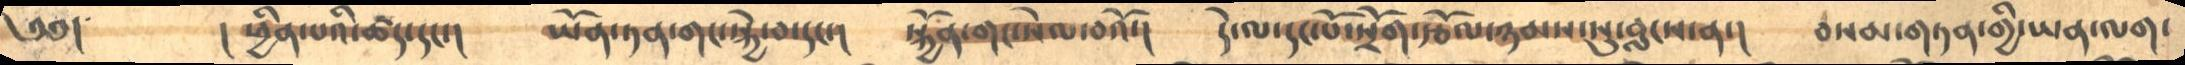༄༅།       ། ཕྱིན་པའི་ཚད་དང་།      ཡོན་ཏན་གང་སྐྱེ་བ་དང་།    སྐྱོན་གང་སེལ་བའོ་།   དེ་ལ་དང་པོ་སྲོག་རྩོལ་ཉམས་སུ་བླངས་ན་།    བསམ་གཏན་གྱི་ཡན་ལག་
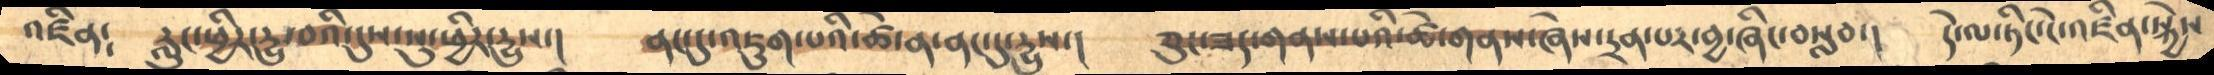འཛིན༴   རླུང་ཕྱིར་དྱུ་བའི་དུས་སུ་ཕྱིར་དྱུས་།      ནང་དུ་འཇུག་པའི་ཚེ་ན་ནང་དུ་དྱུས་།    ཅུང་ཟད་གནས་པའི་ཚེ་གནས་ཞེས་དྲན་པར་བྱ་ཞིང་བསླབ་།   དེ་ལ་ཏིང་ངེ་འཛིན་སྐྱེས
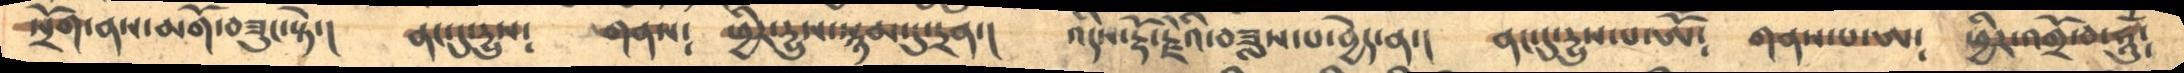སྲོག་ནས་མགོ་བཟུང་སྟེ་།     ནང་དུ་དྱུས༴     གནས༴    ཕྱིར་དྱུས་སྙམ་དུ་དྲན་།      འདིས་རྡོ་རྗེའི་བཟླས་པ་བྱེད་ན་།   ནང་དུ་དྱུས་པ་ཨོ༴     གནས་པ་ཨ༴    ཕྱིར་འགྲོ་བ་ཧཱུྃ༴
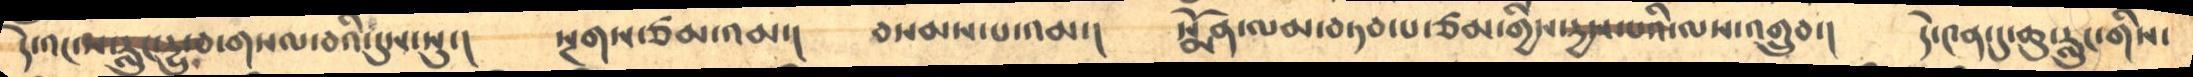དེ་འང་ས་རླུང་དྱུ་བ་གསལ་བའི་དུས་སུ་།    སྔགས་ཙམ་འམ་།     བསམས་པ་འམ་།    སྨོན་ལམ་བཏབ་པ་ཙམ་གྱིས་སདྱས་པའི་ལས་འགྲུབ་།    དེ་༤ན་དུ་ཆུ་རླུང་གིས་
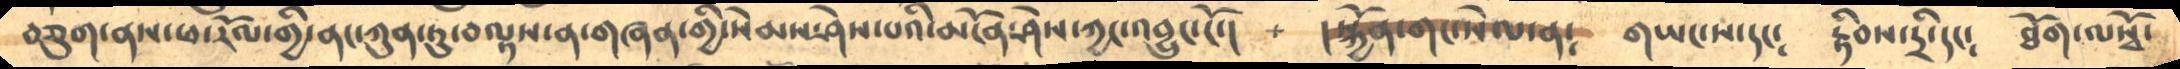བཅུག་ནས་ཕ་རོལ་གྱི་ནང་ཀུན་ཏུ་བལྟས་ན་གཞན་གྱི་སེམས་ཤེས་པའི་མངོན་ཤེས་ཀྱང་འབྱུང་ངོ་།   །སྐྱོན་གང་སེལ་ན༴  གཡང་ས་དང༴  རྟིབས་དྲི་དང༴  ཐོག་ལསྭོ་
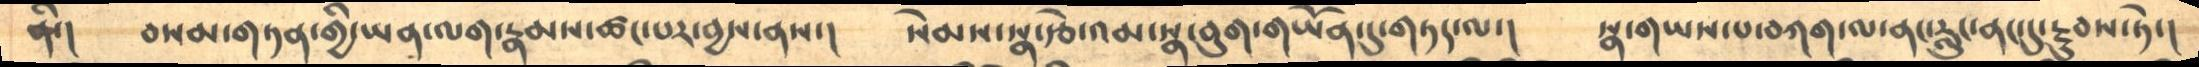ནི་།    བསམ་གཏན་གྱི་ཡན་ལག་རྣམས་ཚང་པར་བྱས་ནས་།      སེམས་སྣ་རྩེ་འམ་སྣ་བུག་གཡོན་དུ་གཏད་ལ་།    སྣ་གཡས་པ་བཀག་ལ་རླུང་ནང་དུ་རྔུབས་ཏེ་།
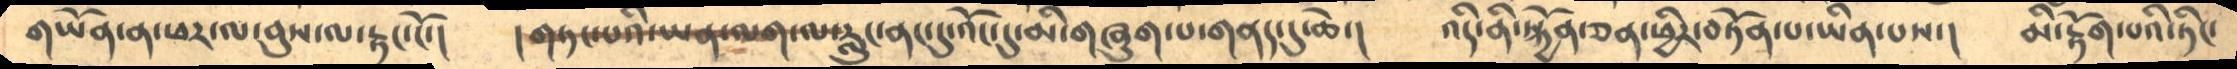གཡོན་ན་ཕར་ལ་བུས་མ་རྟང་ངོ་།   །གཏང་པའི་ཡན་ལག་ལ་རླུང་ནང་དུ་འོང་དུ་མི་གཞུག་པ་གནད་དུ་ཆེ་།    འདི་ནི་སྐྱོན་ཅན་ཕྱིར་བཏོན་པ་ཡིན་པས་།    མི་རྟོག་པའི་ཏིང་
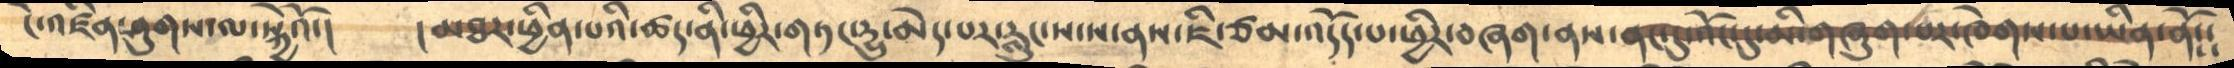ངེ་འཛིན་ཤུགས་ལ་སྐྱེའོ་།    །མཐར་ཕྱིན་པའི་ཚད་ནི་ཕྱིར་གཏང་དྱུ་མེད་པར་རླུང་ས་ས་ནས་ཇི་ཙམ་འདོད་པ་ཕྱིར་བཞག་ནས་ནང་དུ་འོང་དུ་མི་གཞུག་པར་ཁེགས་པ་ཡིན་ནོ༴༴
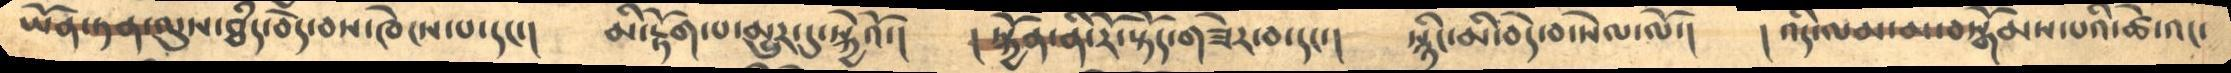ཡོན་ཏན་ལུས་ཐཾད་བདེ་བས་ཁེངས་པ་དང་།     མི་རྟོག་པ་མྱུར་དུ་སྐྱེའོ་།     །སྐྱོན་ནི་རོ་སྟོད་གཟེར་བ་དང་།    སྙིང་མི་བེད་བ་སེལ་ལོ་།   །འདི་ལམ་མ་བསྒོམ་པའི་ཚེ་འང་
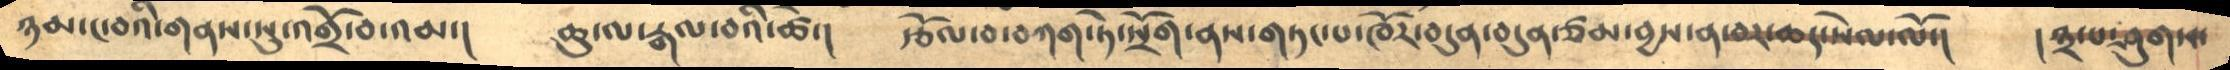ཉམ་ང་བའི་གནས་སུ་འགྲོ་བ་འམ་།    ཆུ་ལ་རྒལ་བའི་ཚེ་།    རྩོལ་བ་བཀག་ཏེ་སྲོག་ནས་གཏང་པ་ཁོར་བདུན་བདུན་ཙམ་བྱས་ན་བར་ཆད་སེལ་ལོ་།    །༣་པ་ཤུགས་
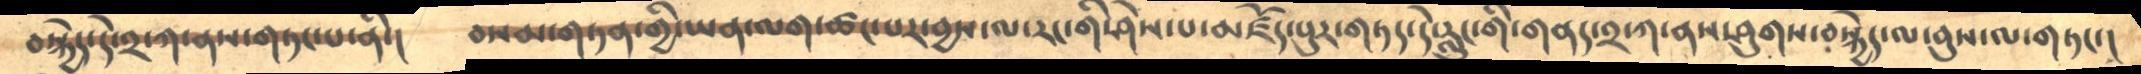བསྐྱེད་དེ་༢་ཀ་ནས་གཏང་པ་ནི་།    བསམ་གཏན་གྱི་ཡན་ལག་ཚང་པར་བྱས་ལ་རང་གི་ཤེས་པ་མཛོད་པུར་གཏད་དེ་རླུང་གི་གནད་༢་ཀ་ནས་ཤུགས་བསྐྱེད་ལ་བུས་ལ་གཏང་།
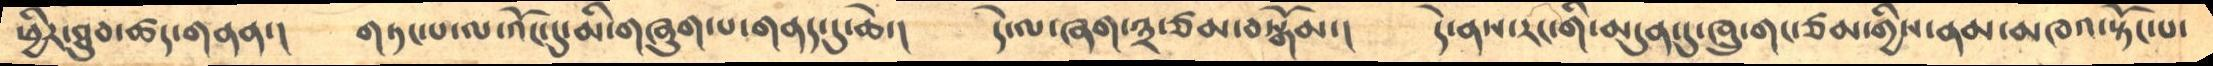ཕྱིར་ཐུབ་ཚད་གནན་།     གཏང་པ་ལ་འོང་དུ་མི་གཞུགས་པ་གནད་དུ་ཆེ་།    དེ་ལ་ཞག་༣་ཙམ་བསྒོམ་།     དེ་ནས་རང་གི་མདུན་དུ་ཁྲུ་གང་ཙམ་གྱིས་ནམ་མཁའ་སྟོང་པ་
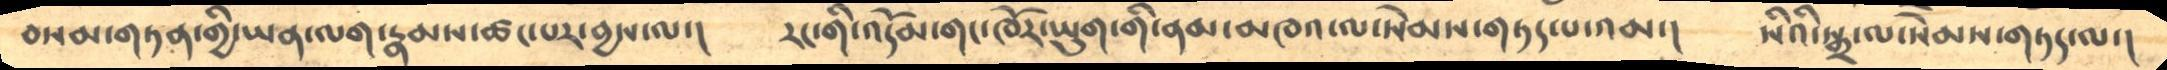བསམ་གཏན་གྱི་ཡན་ལག་རྣམས་ཚང་པར་བྱས་ལ་།     རང་གི་འདོམ་གང་ཁོར་ཡུག་གི་ནམ་མཁའ་ལ་སེམས་གཏད་པ་འམ་།     སིའི་སྒྲ་ལ་སེམས་གཏད་ལ་།
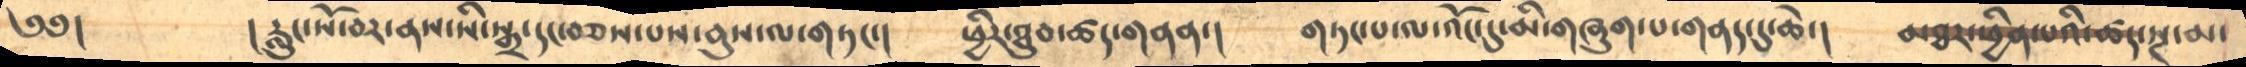༄༅།       །རླུང་སོ་བར་ནས་སི་སྒྲ་དང་བཅས་པས་བུས་ལ་གཏང་།    ཕྱིར་ཐུབ་ཚད་གནན་།    གཏང་པ་ལ་འོང་དུ་མི་གཞུག་པ་གནད་དུ་ཆེ་།    མཐར་ཕྱིན་པའི་ཚད་སྔ་མ་
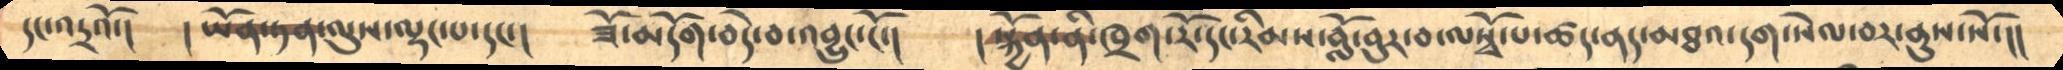དང་འདྲའོ་།       ། ཡོན་ཏན་ལུས་ལྡང་པ་དང་།     ཟོ་མདོག་བདེ་བ་འབྱུང་ངོ་།     །སྐྱོན་ནི་ཁྲག་རོ་དང་རིམས་བློ་བུར་བ་ལསྭོ་པ་ཚད་ནད་མཐའ་དག་སེལ་བར་ནུས་སོ་།།
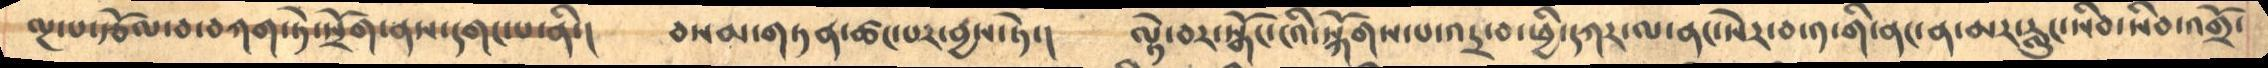ལྔ་པ་རྩོལ་བ་བཀག་ཏེ་སྲོག་ནས་དགང་པ་ནི་།    བསམ་གཏན་ཚང་པར་བྱས་ཏེ་།     ལྟེ་བར་སྒོང་ངའི་སྐོགས་པ་འདྲ་བ་ཕྱི་དཀར་ལ་ནང་སེར་བ་༡་གི་ནང་ན་མར་རླུང་སིབ་སིབ་འགྲོ་
